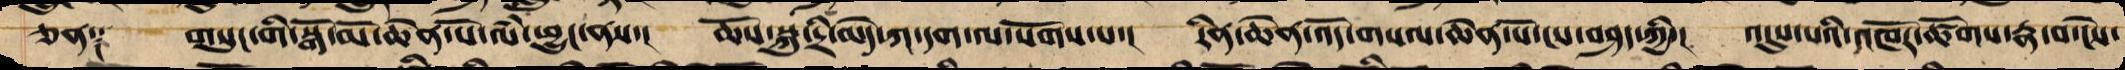ཅན༑ གསུང་གི་སྒོ་མོ་ཆེན་པོར་ལཾ་ཕྱུང་ནས་། ཆོས་སྐུ་དྲི་མེད་ཀ་དག་ལ་སོགས་པ་། རིན་ཆེན་འོད་གསལ་ཆེན་པོ་ངས་བཤད་ཀྱི་། འདུས་པའི་འཁོར་ཚོགས་རྣ་བ་ངེས་
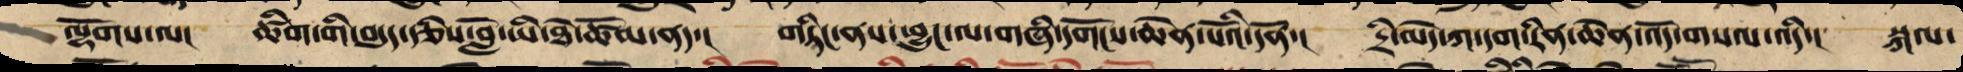ལྷོགས་ལ་། ཚིག་གི་བདུད་རྩིས་བློ་ཡི་ཐེ་ཚོམ་ནད་། གཏིང་ནས་ཕྱུང་ལ་གཞི་དགོངས་ཆེན་པོའི་དོན་། དྲི་མེད་ཀ་དག་རིན་ཆེན་འོད་གསལ་འདི་། སྐལ་
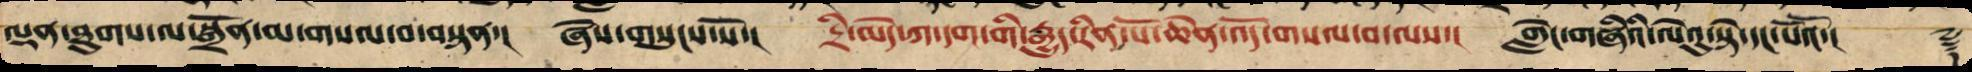ལྡན་ཐུགས་ལ་སྒྲོན་མ་གསལ་བར་བསྟན་། ཞེས་གསུངས་སོ་། དྲི་མེད་ཀ་དག་གི་རྒྱུད་རིན་པོ་ཆེན་འོད་གསལ་བ་ལས་། གླེང་གཞིའི་ལེའུ་སྟེ་དང་པོའོ་། ༈
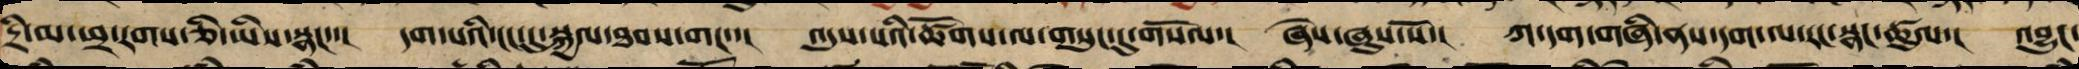དྲི་མ་ཕྲ་རགས་ཅི་ཡིས་སྣང་་། དག་པའི་ངང་དུ་སྐྱལ་ཐབས་གང་་། འདུས་པའི་ཚོགས་ལ་གསུང་དུ་གསོལ་། ཞེས་ཞུས་སོ་། ཀ་དག་གཞི་ནས་དག་ལ་རང་སྣང་ཚུལ་། འབྱུང་
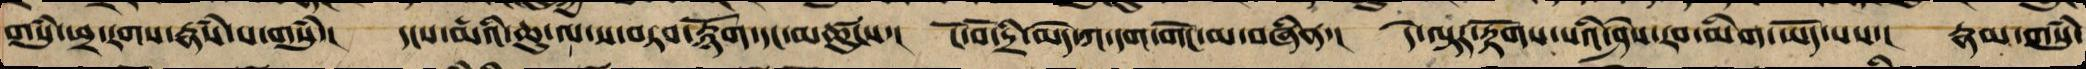གསུཾ་ཕྲ་རགས་རྣཾ་པ་གསུཾ་། དངས་མའི་ཆུ་ལ་ས་བཏབ་རྙོག་དང་མཚུངས་། ངོ་བོ་དྲི་མེད་ཀ་དག་གོང་མ་བཞིན་། དེ་ལྟར་རྟོགས་པའི་ཤེས་རབ་མིག་ཡོད་པས་། རྣམ་གསུཾ་
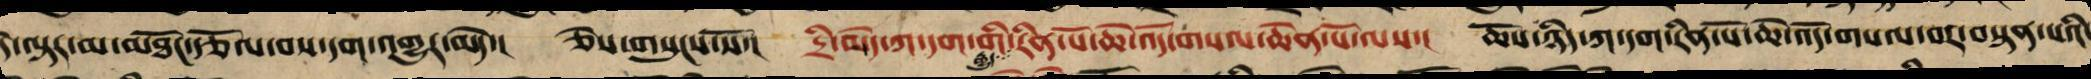དེ་ལྟར་མ་མཐོང་རྩོལ་བས་དག་འགྱུར་མེད་། ཅེས་གསུངས་སོ་། དྲི་མེད་ཀ་དག་གི་རིན་པོ་ཆེ་འོད་གསལ་ཆེན་པོ་ལས་། ཆོས་ཉིད་ཀ་དག་རིན་པོ་ཆེ་འོད་གསལ་བར་བསྟན་པའི་
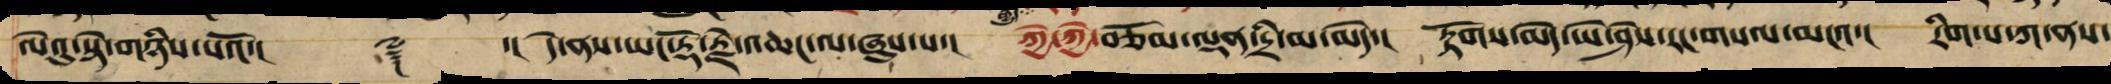ལེའུ་སྟེ་གཉིས་པའོ།། ༈      ་།   དེ་ནས་ཡང་རྡོ་རྗེ་འཆང་ལ་ཞུས་པ་།    ཀྱེ་ཀྱེ་བཅོམ་ལྡན་དྲི་མ་མོད་།    རྟོག་མེད་ཡེ་ཤེས་རང་གསལ་མངའ།   རིག་པ་ཀ་ནས་
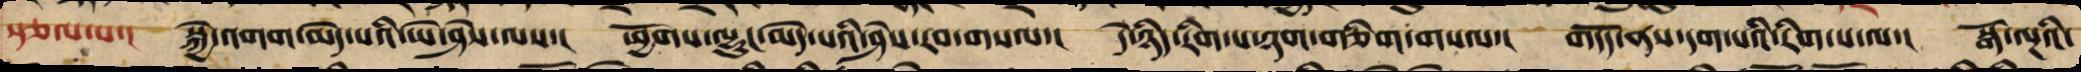སྩལ་པ་། སྐྱེ་འགག་མེད་པའི་ཡེ་ཤེས་ལས་། ཕྱོགས་ལྷུང་མེད་པའི་ཤེས་རབ་གསལ་། དེ་ཉིད་རིག་པ་ཉག་གཅིག་གསལ་། གདོད་ནས་དག་པའི་རིག་པ་ལ་། སྒོ་ལྔའི་
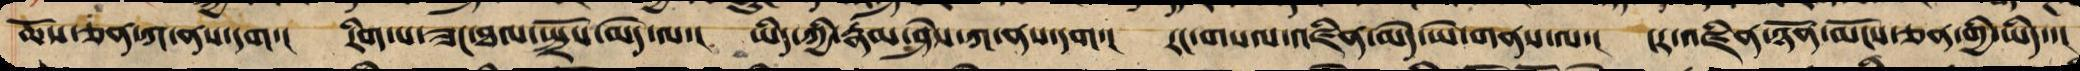ཆོས་ཅན་ཀ་ནས་དག་། རིག་པ་ཟང་ཐལ་སྤྲོས་མེད་ལ་། ཡིད་ཀྱི་རྣམ་ཤེས་ཀ་ནས་དག་། རང་གསལ་འཛིན་མེད་ཡེ་གནས་ལ་། ངར་འཛིན་ཉོན་མོངས་ཅན་གྱི་ཡིད་་།
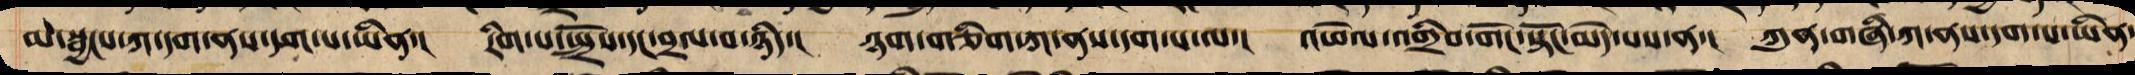མ་སྦྱངས་ཀ་དག་ནས་དག་པ་ཡིན་། རིག་པ་སྤྲོས་དང་བྲལ་བ་ཉིད་། ཉག་གཅིག་ཀ་ནས་དག་པ་ལ་། འཕེལ་འགྲིབ་གོང་སྟོངས་མེད་པས་ན་། ཀུན་གཞི་ཀ་ནས་དག་པ་ཡིན་
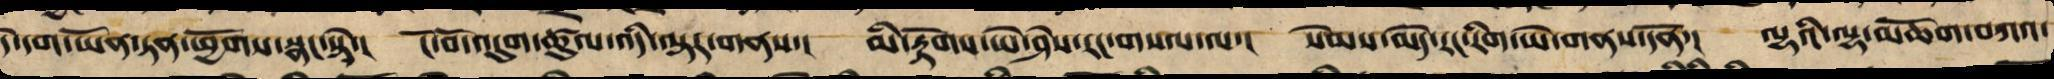དེ་དག་ཡོན་ཏན་ཕྱོགས་སྣང་སྟེ་། ངོ་བོ་འདུག་ཚུལ་འདི་ལྟར་གནས་། མི་རྟོགས་ཡེ་ཤེས་རང་གསལ་ལ་། སེམས་མེད་རང་རིག་ཡེ་གནས་དོན་། ལྷའི་ལྷ་མཆོག་བཀའ་
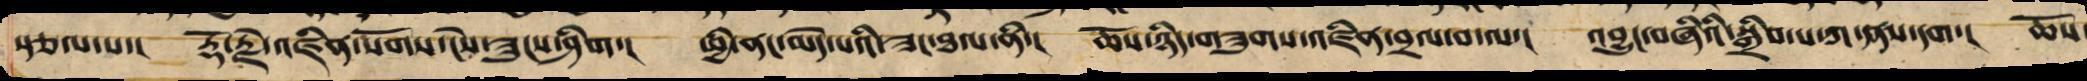སྩལ་པ་། རྡོ་རྗེ་འཛིན་སོགས་ངེས་ཟུང་ཤིག་། ཕྱི་ནང་མེད་པའི་ཟང་ཐལ་ནི་། ཆོས་ཉིད་གཟུང་འཛིན་བྲལ་བ་ལ་། འབྱུང་བཞིའི་སྒྲིབ་པ་ཀ་ནས་དག་། ཆོས
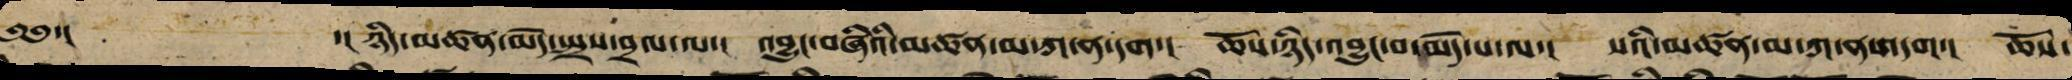༄༅་། ་། ཉིད་མཚན་མེད་སྤྲས་བྲལ་ལ་། འབྱུང་བཞིའི་མཚན་མ་ཀ་ནས་དག་། ཆོས་ཉིད་འབྱུང་བ་མེད་པ་ལ་། སའི་མཚན་མ་ཀ་ནས་དག་། ཆོས་
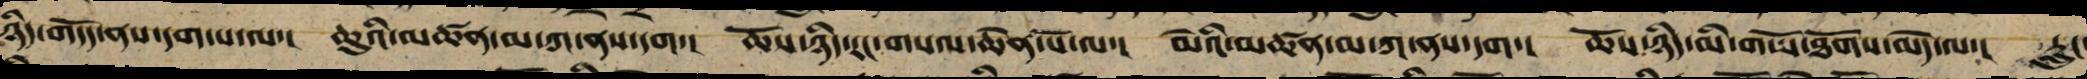ཉིད་གདོད་ནས་དག་པ་ལ་། ཆུའི་མཚན་མ་ཀ་ནས་དག་། ཆོས་ཉིད་རང་གསལ་ཆེན་པོ་ལ་། མེའི་མཚན་མ་ཀ་ནས་དག་། ཆོས་ཉིད་མི་གཡོ་ཐོགས་མེད་ལ་། རླུང་
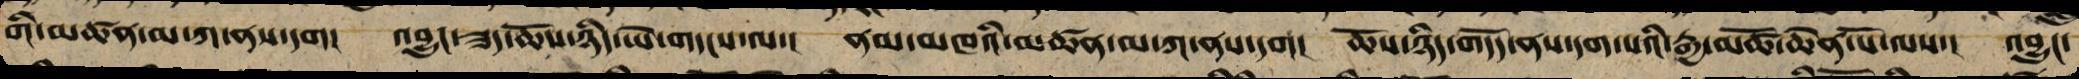གི་མཚན་མ་ཀ་ནས་དག། འབྱུང་ཟད་ཆོས་ཉིད་ཡེ་གདངས་ལ་། ནམ་མཁའི་མཚན་མ་ཀ་ནས་དག། ཆོས་ཉིད་གདོད་ནས་དག་པའི་རྒྱ་མཚོ་ཆེན་པོ་ལས་། འབྱུང་
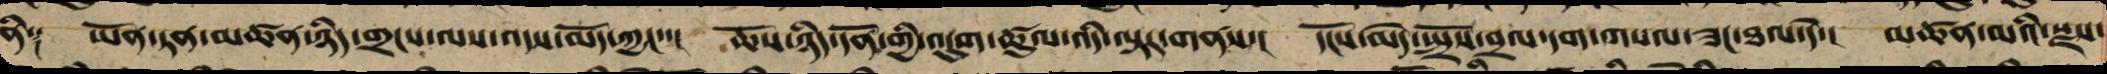ནི༑ ཡོན་ཏན་མཚན་ཉིད་གྲངས་ལས་འདས་མོད་ཀྱང་་། ཆོས་ཉིད་དོན་གྱི་འདུག་ཚུལ་འདི་ལྟར་གནས་། དངོས་མེད་སྤྲོས་བྲལ་དག་གསལ་ཟང་ཐལ་དེ་། མཚན་མའི་སྫས་
